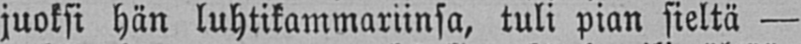juoksi hän luhtikammariinsa, tuli pian sieltä —
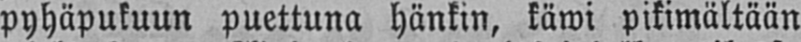pyhäpukuun puettuna hänkin, käwi pikimältään
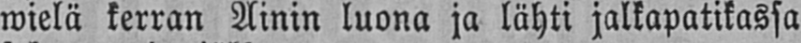wielä kerran Ainin luona ja lähti jalkapatikassa
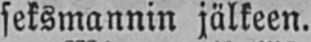seksmannin jälkeen.
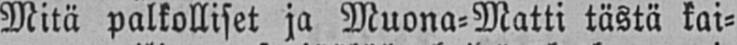Mitä palkolliset ja Muona-Matti tästä kai-
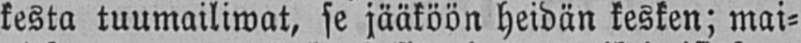kesta tuumailiwat, se jääköön heidän kesken; mai-
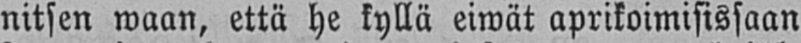nitsen waan, että he kyllä eiwät aprikoimisissaan
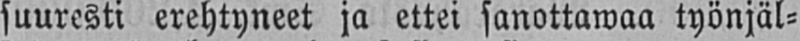suuresti erehtyneet ja ettei sanottawaa työnjäl-
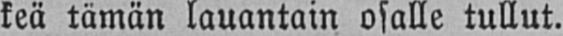keä tämän lauantain osalle tullut.
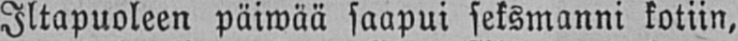Iltapuoleen päiwää saapui seksmanni kotiin,
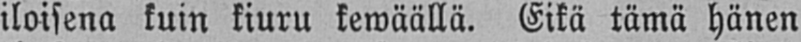iloisena kuin kiuru kewäällä. Eikä tämä hänen
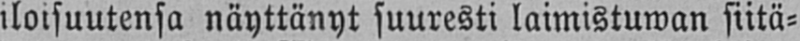iloisuutensa näyttänyt suuresti laimistuwan siitä-
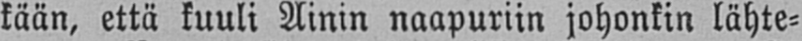kään, että kuuli Ainin naapuriin johonkin lähte-
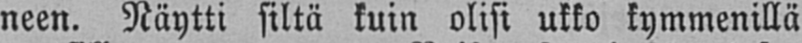neen. Näytti siltä kuin olisi ukko kymmenillä
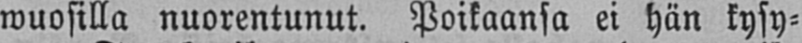wuosilla nuorentunut. Poikaansa ei hän kysy-
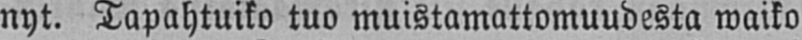nyt. Tapahtuiko tuo muistamattomuudesta waiko
